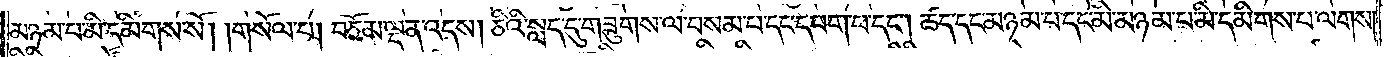མཉམ་པ་མི་དམིགས་སོ། །གསོལ་པ། བཅོམ་ལྡན་འདས། ཅིའི་སླད་དུ་གཟུགས་ལ་བསམ་པ་དང་དཔག་པ་དང༌། ཚད་དང་མཉམ་པ་དང་མི་མཉམ་པ་མི་དམིགས་པ་ལགས།
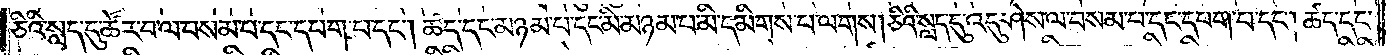ཅིའི་སླད་དུ་ཚོར་བ་ལ་བསམ་པ་དང་དཔག་པ་དང༌། ཚད་དང་མཉམ་པ་དང་མི་མཉམ་པ་མི་དམིགས་པ་ལགས། ཅིའི་སླད་དུ་འདུ་ཤེས་ལ་བསམ་པ་དང་དཔག་པ་དང༌། ཚད་དང་
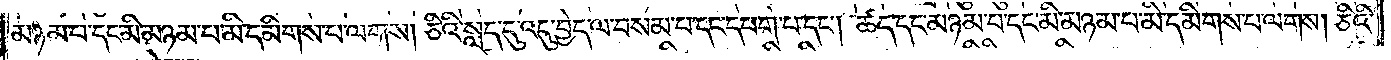མཉམ་པ་དང་མི་མཉམ་པ་མི་དམིགས་པ་ལགས། ཅིའི་སླད་དུ་འདུ་བྱེད་ལ་བསམ་པ་དང་དཔག་པ་དང༌། ཚད་དང་མཉམ་པ་དང་མི་མཉམ་པ་མི་དམིགས་པ་ལགས། ཅིའི་
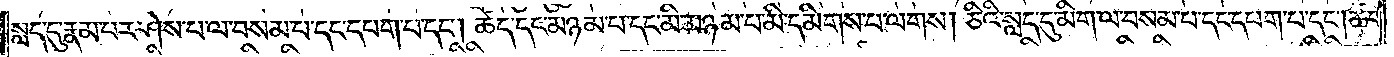སླད་དུ་རྣམ་པར་ཤེས་པ་ལ་བསམ་པ་དང་དཔག་པ་དང༌། ཚད་དང་མཉམ་པ་དང་མི་མཉམ་པ་མི་དམིགས་པ་ལགས། །ཅིའི་སླད་དུ་མིག་ལ་བསམ་པ་དང་དཔག་པ་དང༌། ཚད་
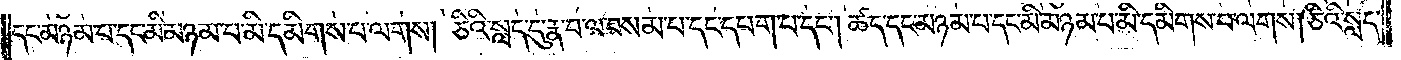དང་མཉམ་པ་དང་མི་མཉམ་པ་མི་དམིགས་པ་ལགས། ཅིའི་སླད་དུ་རྣ་བ་ལ་བསམ་པ་དང་དཔག་པ་དང༌། ཚད་དང་མཉམ་པ་དང་མི་མཉམ་པ་མི་དམིགས་པ་ལགས། ཅིའི་སླད་
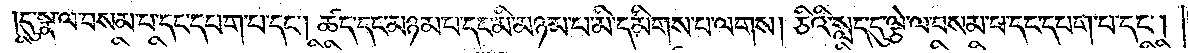དུ་སྣ་ལ་བསམ་པ་དང་དཔག་པ་དང༌། ཚད་དང་མཉམ་པ་དང་མི་མཉམ་པ་མི་དམིགས་པ་ལགས། ཅིའི་སླད་དུ་ལྕེ་ལ་བསམ་པ་དང་དཔག་པ་དང༌།
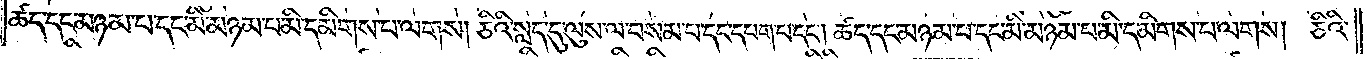ཚད་དང་མཉམ་པ་དང་མི་མཉམ་པ་མི་དམིགས་པ་ལགས། ཅིའི་སླད་དུ་ལུས་ལ་བསམ་པ་དང་དཔག་པ་དང༌། ཚད་དང་མཉམ་པ་དང་མི་མཉམ་པ་མི་དམིགས་པ་ལགས། ཅིའི་
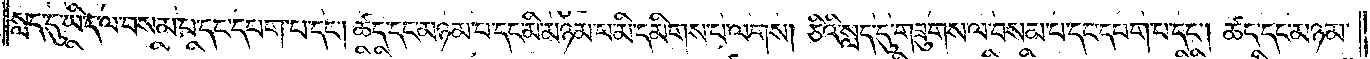སླད་དུ་ཡིད་ལ་བསམ་པ་དང་དཔག་པ་དང༌། ཚད་དང་མཉམ་པ་དང་མི་མཉམ་པ་མི་དམིགས་པ་ལགས། ཅིའི་སླད་དུ་གཟུགས་ལ་བསམ་པ་དང་དཔག་པ་དང༌། ཚད་དང་མཉམ་
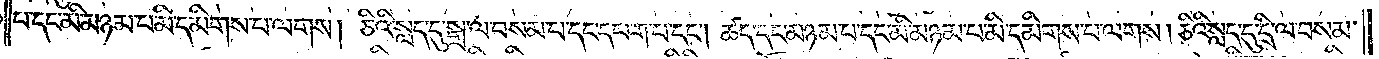པ་དང་མི་མཉམ་པ་མི་དམིགས་པ་ལགས། ཅིའི་སླད་དུ་སྒྲ་ལ་བསམ་པ་དང་དཔག་པ་དང༌། ཚད་དང་མཉམ་པ་དང་མི་མཉམ་པ་མི་དམིགས་པ་ལགས། ཅིའི་སླད་དུ་དྲི་ལ་བསམ་
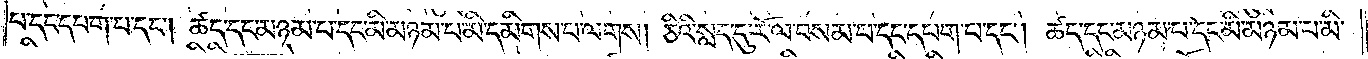པ་དང་དཔག་པ་དང༌། ཚད་དང་མཉམ་པ་དང་མི་མཉམ་པ་མི་དམིགས་པ་ལགས། ཅིའི་སླད་དུ་རོ་ལ་བསམ་པ་དང་དཔག་པ་དང༌། ཚད་དང་མཉམ་པ་དང་མི་མཉམ་པ་མི་
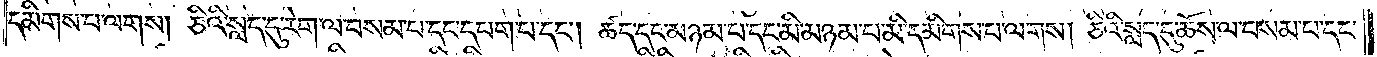དམིགས་པ་ལགས། ཅིའི་སླད་དུ་རེག་ལ་བསམ་པ་དང་དཔག་པ་དང༌། ཚད་དང་མཉམ་པ་དང་མི་མཉམ་པ་མི་དམིགས་པ་ལགས། ཅིའི་སླད་དུ་ཆོས་ལ་བསམ་པ་དང་
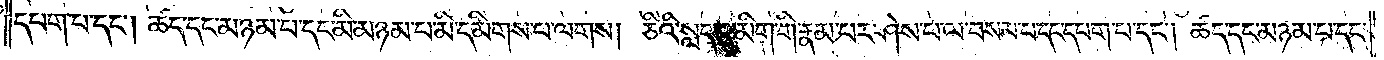དཔག་པ་དང༌། ཚད་དང་མཉམ་པ་དང་མི་མཉམ་པ་མི་དམིགས་པ་ལགས། ཅིའི་སླད་དུ་མིག་གི་རྣམ་པར་ཤེས་པ་ལ་བསམ་པ་དང་དཔག་པ་དང༌། ཚད་དང་མཉམ་པ་དང་
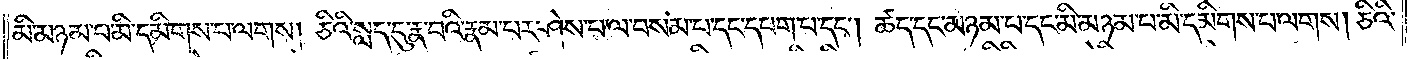མི་མཉམ་པ་མི་དམིགས་པ་ལགས། ཅིའི་སླད་དུ་རྣ་བའི་རྣམ་པར་ཤེས་པ་ལ་བསམ་པ་དང་དཔག་པ་དང༌། ཚད་དང་མཉམ་པ་དང་མི་མཉམ་པ་མི་དམིགས་པ་ལགས། ཅིའི་
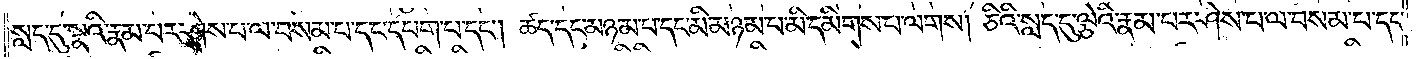སླད་དུ་སྣའི་རྣམ་པར་ཤེས་པ་ལ་བསམ་པ་དང་དཔག་པ་དང༌། ཚད་དང་མཉམ་པ་དང་མི་མཉམ་པ་མི་དམིགས་པ་ལགས། ཅིའི་སླད་དུ་ལྕེའི་རྣམ་པར་ཤེས་པ་ལ་བསམ་པ་དང་
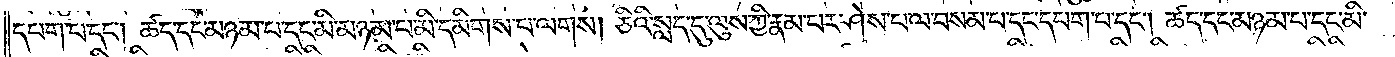དཔག་པ་དང༌། ཚད་དང་མཉམ་པ་དང་མི་མཉམ་པ་མི་དམིགས་པ་ལགས། ཅིའི་སླད་དུ་ལུས་ཀྱི་རྣམ་པར་ཤེས་པ་ལ་བསམ་པ་དང་དཔག་པ་དང༌། ཚད་དང་མཉམ་པ་དང་མི་
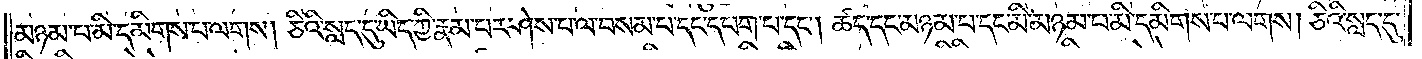མཉམ་པ་མི་དམིགས་པ་ལགས། ཅིའི་སླད་དུ་ཡིད་ཀྱི་རྣམ་པར་ཤེས་པ་ལ་བསམ་པ་དང་དཔག་པ་དང༌། ཚད་དང་མཉམ་པ་དང་མི་མཉམ་པ་མི་དམིགས་པ་ལགས། ཅིའི་སླད་དུ་
